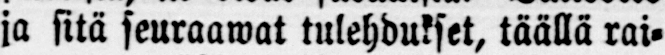ja sitä seuraawat tulehdukset, täällä rai-
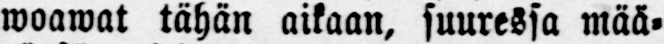woawat tähän aikaan, suuressa mää-
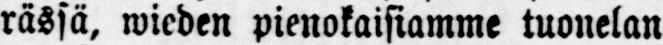rässä, wieden pienokaisiamme tuonelan
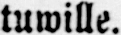tuwille.
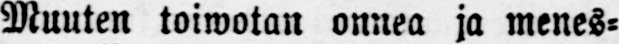Muuten toiwotan onnea ja menes-
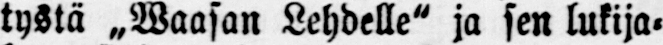tystä „Waasan Lehdelle" ja sen lukija-
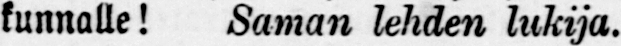kunnalle! Saman lehden lukija.
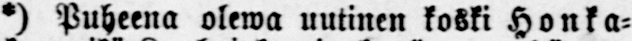*) Puheena olewa uutinen koski Honka-
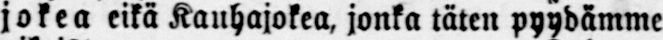jokea eikä Kauhajokea, jonka täten pyydämme
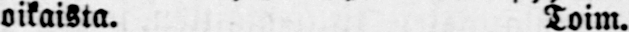oikaista. Toim.
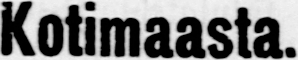Katimaasta.
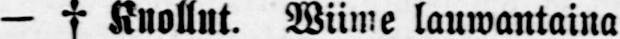— † Kuollut. Wiime lauwantaina
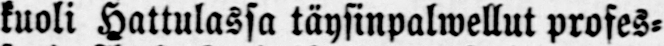kuoli Hattulassa täysinpalwellut profes-
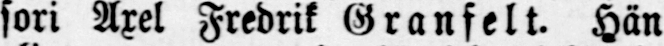sori Axel Fredrik Granfelt. Hän
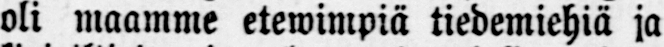oli maamme etewimpiä tiedemiehiä ja
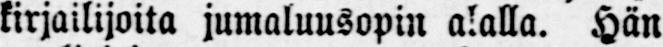kirjailijoita jumaluusopin alalla. Hän
